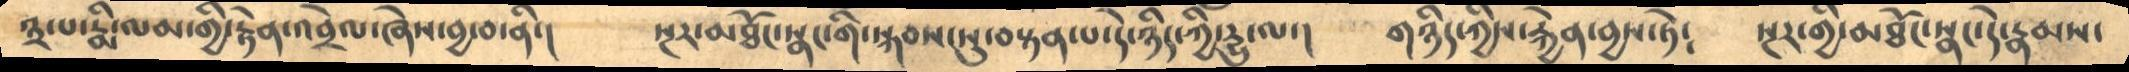༣་པ་རྨི་ལམ་གྱི་རྟེན་འབྲེལ་ཞེས་བྱ་བ་ནི་།    སྔར་མཐོང་སྣང་གི་སྐབས་སུ་བསྟན་པ་དེ་ཉིད་ཀྱི་དྱུ་ལ་།    གཉིད་ཀྱིས་རྐྱེན་བྱས་ཏེ༴    སྔར་གྱི་མཐོང་སྣང་དེ་རྣམས་
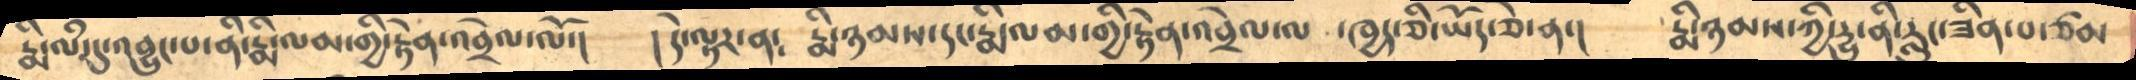རྨི་ལཾ་དུ་འབྱུང་པ་ནི་རྨི་ལམ་གྱི་རྟེན་འབྲེལ་ལོ་།    །  དེ་ལྟར་ན༴    རྨི་ཉམས་དང་རྨི་ལམ་གྱི་རྟེན་འབྲེལ་ལ་ཁྱད་ཅི་ཡོད་ཅེ་ན་།  རྨི་ཉམས་ཀྱི་དྱུ་ནི་རླུང་ཟིན་པ་ཙམ
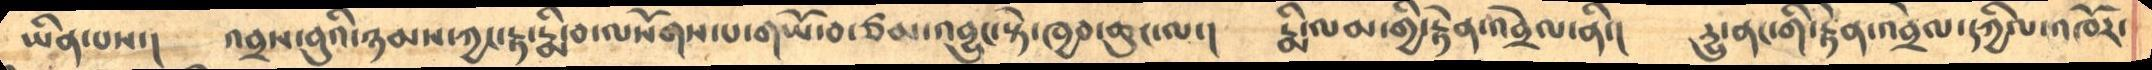ཡིན་པས་།     འབྲས་བུའི་ཉམས་ཀྱང་རྟ་རྨི་བ་ལསོགས་པ་གཡོ་བ་ཙམ་འབྱུང་སྟེ་ཁྱབ་ཆུང་ལ་།    རྨི་ལམ་གྱི་རྟེན་འབྲེལ་ནི་།   དྱུ་ནང་གི་རྟེན་འབྲེལ་དཀྱིལ་འཁོར་
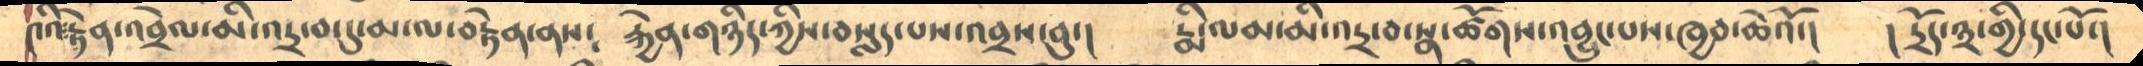༤འི་རྟེན་འབྲེལ་མི་འདྲ་བ་དུ་མ་ལ་བརྟེན་ནས༴     རྐྱེན་གཉིད་ཀྱིས་བསླད་པས་འབྲས་བུ་།     རྨི་ལམ་མི་འདྲ་བ་སྣ་ཚོགས་འབྱུང་པས་ཁྱབ་ཆེའོ་།     །  དྲོད་༣་གྱི་དང་པོ་།
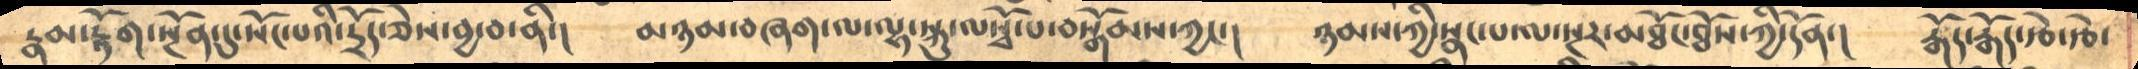རྣམ་རྟོག་སྔོན་དུ་སོང་པའི་དྲོད་ཅེས་བྱ་བ་ནི་།    མཉམ་བཞག་ལ་ལྷ་སྐུ་ལསྭོ་པ་བསྒོམས་ཀྱང་།    ཉམས་ཀྱི་སྣང་པ་ལ་སྔར་མཐོང་ཐོས་ཀྱི་དོན་།    རྒོད་རྒོད་རྩེ་རྩེ་
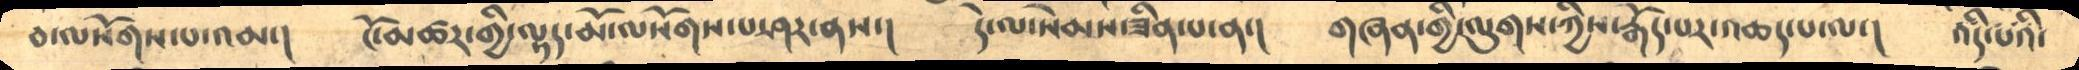བ་ལསོགས་པ་འམ་།    ངོ་མཚར་གྱི་ལྟད་མོ་ལསོགས་པ་ཤར་ནས་།    དེ་ལ་སེམས་ཟིན་པ་ན་།   གཞན་གྱི་ལུགས་ཀྱིས་རྒོད་པར་འཆད་པ་ལ་།   འདི་པའི་
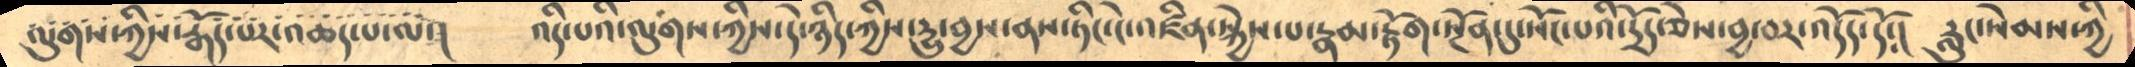ལུགས་ཀྱིས་རྒོད་པར་འཆད་པ་ལ་།    འདི་པའི་ལུགས་ཀྱིས་དེ་ཉིད་ཀྱིས་དྱུ་བྱས་ནས་ཏིང་ངེ་འཛིན་སྐྱེས་པ་རྣམ་རྟོག་སྔོན་དུ་སོང་པའི་དྲོད་ཅེས་བྱ་བར་འདོད་དོ༴།   རླུང་སེམས་ཀྱི
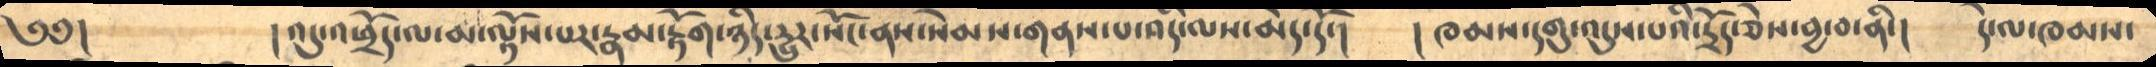༄༅།       ། འདུ་འཕྲོད་ལ་མ་ལྟོས་པར་རྣམ་རྟོག་ཉིད་དྱུར་སོང་ནས་སེམས་གནས་པ་འདི་ལས་མེད་དོ་།    ། ཁམས་དགུ་འདུས་པའི་དྲོད་ཅེས་བྱ་བ་ནི་།    དེ་ལ་ཁམས་
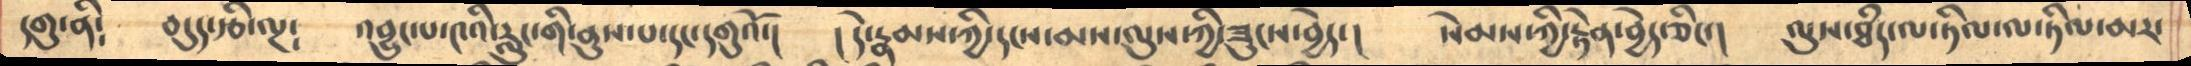དགུ་ནི༴     བདུད་རྩི་ལྔ༴   འབྱུང་པ་༤འི་རླུང་གི་ནུས་པ་དང་དགུའོ་།    །དེ་རྣམས་ཀྱི་དངས་མས་ལུས་ཀྱི་ཟུངས་བྱེད་།   སེམས་ཀྱི་རྟེན་བྱེད་ཅིང་།   ལུས་ཐཾད་ལ་ཏིལ་ལ་ཏིལ་མར་
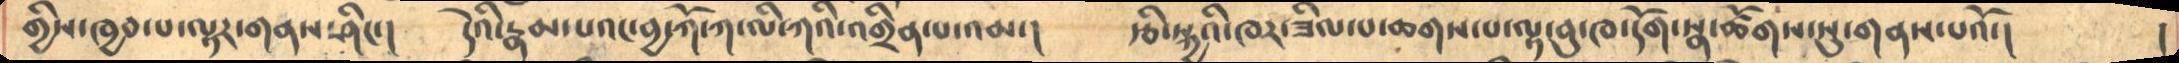གྱིས་ཁྱབ་པ་ལྟར་གནས་ཤིང་།    དེའི་རྣམ་པའང་བྱ་ཀོ་ཀ་ལི་ཀའི་འགྲིན་པ་འམ་།   རྩི་སྐྱའི་ཁར་ཟིལ་པ་ཆགས་པ་ལྟ་བུ་ཁ་དོག་སྣ་ཚོགས་སུ་གནས་པའོ་། །
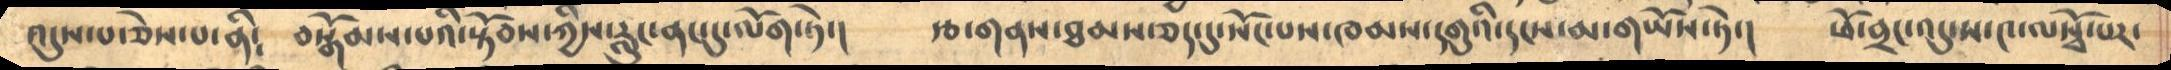འདུས་པ་ཅེས་པ་ནི༴    བསྒོམས་པའི་སྟོབས་ཀྱིས་རླུང་ནང་དུ་ལོག་ཏེ་།       རྩ་གནས་ཐམས་ཅད་དུ་སོང་པས་ཁམས་དགུའི་དངས་མ་གཡོས་ཏེ་།   ཕོ་བྲང་འདུ་ས་༤་ལསྭོ་པར་
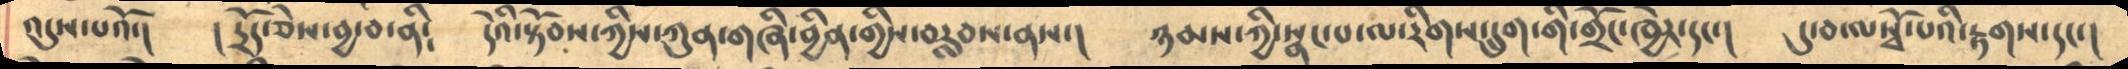འདུས་པའོ་།    ། དྲོད་ཅེས་བྱ་བ་ནི༴   དེའི་སྟོབས་ཀྱིས་ཀུན་གཞི་ནྱིན་གྱིས་བརླབས་ནས་།      ཉམས་ཀྱི་སྣང་པ་ལ་རིགས་དྲུག་གི་གྲོང་ཁྱེར་དང་།    དུ་བ་ལསྭོ་པའི་རྟགས་དང་།
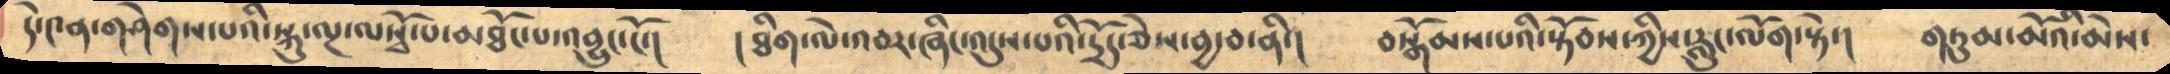དེ་༤ན་གཤེགས་པའི་སྐུ་ལྔ་ལསྭོ་པ་མཐོང་པ་འབྱུང་ངོ་།        ། ཐིག་ལེ་འབར་ཞིང་འདུས་པའི་དྲོད་ཅེས་བྱ་བ་ནི་།     བསྒོམས་པའི་སྟོབས་ཀྱིས་རླུང་ལོག་སྟེ་།     གཏུམ་མོའི་མེས་
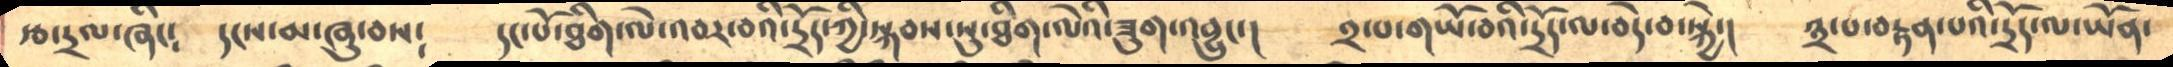རྩ་དྲལ་ཞིང༴      དངས་མ་ཞུ་བས༴     དང་པོ་ཐིག་ལེ་འབར་བའི་དྲོད་ཀྱི་སྐབས་སུ་ཐིག་ལེའི་ཟུག་འབྱུང་།     ༢་པ་གཡོ་བའི་དྲོད་ལ་བདེ་བ་སྐྱེ་།    ༣་པ་བརྟན་པའི་དྲོད་ལ་ཡོན་
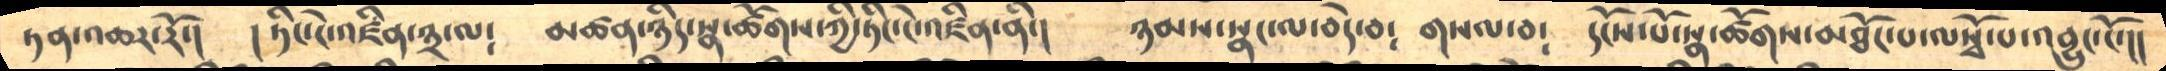ཏན་འཆར་རོ་།     ། ཏིང་ངེ་འཛིན་༣་ལ༴     མཚན་ཉིད་སྣ་ཚོགས་ཀྱི་ཏིང་ངེ་འཛིན་ནི་།    ཉམས་སྣང་ལ་བདེ་བ༴  གསལ་བ༴    དངོས་པོ་སྣ་ཚོགས་མཐོང་པ་ལསྭོ་པ་འབྱུང་ངོ་།།
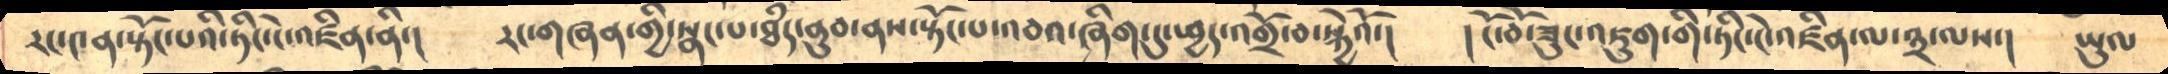རང་༤ན་སྟོང་པའི་ཏིང་ངེ་འཛིན་ནི་།     རང་གཞན་གྱི་སྣང་པ་ཐཾད་ནུབ་ནས་སྟོང་པ་འབའ་ཞིག་དུ་ཕྱད་འགྲོ་བ་སྐྱེའོ་།     །ངོ་བོ་ཟུང་འཇུག་གི་ཏིང་ངེ་འཛིན་ལ་༣་ལས་།   ཡུལ
